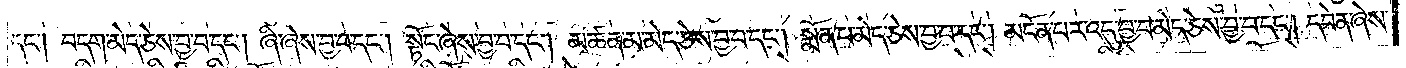དང༌། བདག་མེད་ཅེས་བྱ་བ་དང༌། ཞི་ཞེས་བྱ་བ་དང༌། སྟོང་ཞེས་བྱ་བ་དང༌། མཚན་མ་མེད་ཅེས་བྱ་བ་དང༌། སྨོན་པ་མེད་ཅེས་བྱ་བ་དང༌། མངོན་པར་འདུ་བྱ་བ་མེད་ཅེས་བྱ་བ་དང༌། དབེན་ཞེས་
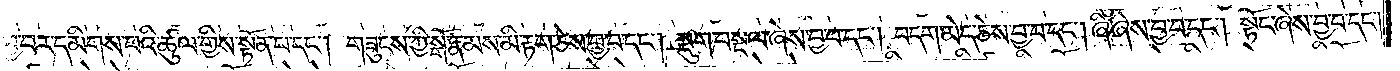བྱ་བར་དམིགས་པའི་ཚུལ་གྱིས་སྟོན་པ་དང༌། གཟུངས་ཀྱི་སྒོ་རྣམས་མི་རྟག་ཅེས་བྱ་བ་དང༌། སྡུག་བསྔལ་ཞེས་བྱ་བ་དང༌། བདག་མེད་ཅེས་བྱ་བ་དང༌། ཞི་ཞེས་བྱ་བ་དང༌། སྟོང་ཞེས་བྱ་བ་དང༌།
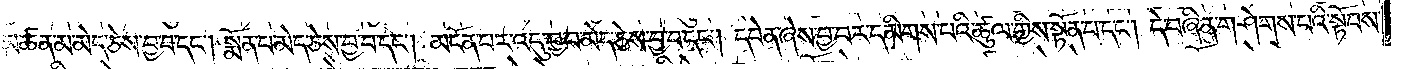མཚན་མ་མེད་ཅེས་བྱ་བ་དང༌། སྨོན་པ་མེད་ཅེས་བྱ་བ་དང༌། མངོན་པར་འདུ་བྱ་བ་མེད་ཅེས་བྱ་བ་དང༌། དབེན་ཞེས་བྱ་བར་དམིགས་པའི་ཚུལ་གྱིས་སྟོན་པ་དང༌། དེ་བཞིན་གཤེགས་པའི་སྟོབས་
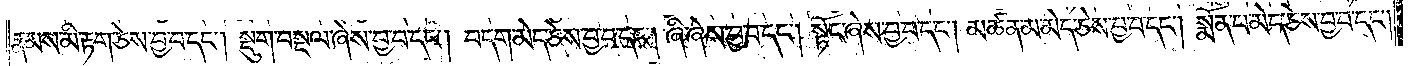རྣམས་མི་རྟག་ཅེས་བྱ་བ་དང༌། སྡུག་བསྔལ་ཞེས་བྱ་བ་དང༌། བདག་མེད་ཅེས་བྱ་བ་དང༌། ཞི་ཞེས་བྱ་བ་དང༌། སྟོང་ཞེས་བྱ་བ་དང༌། མཚན་མ་མེད་ཅེས་བྱ་བ་དང༌། སྨོན་པ་མེད་ཅེས་བྱ་བ་དང༌།
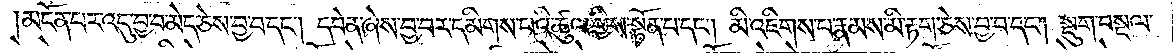མངོན་པར་འདུ་བྱ་བ་མེད་ཅེས་བྱ་བ་དང༌། དབེན་ཞེས་བྱ་བར་དམིགས་པའི་ཚུལ་གྱིས་སྟོན་པ་དང༌། མི་འཇིགས་པ་རྣམས་མི་རྟག་ཅེས་བྱ་བ་དང༌། སྡུག་བསྔལ་
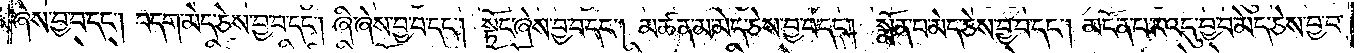ཞེས་བྱ་བ་དང༌། བདག་མེད་ཅེས་བྱ་བ་དང༌། ཞི་ཞེས་བྱ་བ་དང༌། སྟོང་ཞེས་བྱ་བ་དང༌། མཚན་མ་མེད་ཅེས་བྱ་བ་དང༌། སྨོན་པ་མེད་ཅེས་བྱ་བ་དང༌། མངོན་པར་འདུ་བྱ་བ་མེད་ཅེས་བྱ་བ་
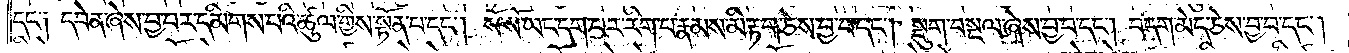དང༌། དབེན་ཞེས་བྱ་བར་དམིགས་པའི་ཚུལ་གྱིས་སྟོན་པ་དང༌། སོ་སོར་ཡང་དག་པར་རིག་པ་རྣམས་མི་རྟག་ཅེས་བྱ་བ་དང༌། སྡུག་བསྔལ་ཞེས་བྱ་བ་དང༌། བདག་མེད་ཅེས་བྱ་བ་དང༌།
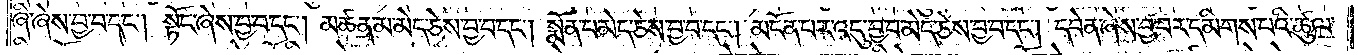ཞི་ཞེས་བྱ་བ་དང༌། སྟོང་ཞེས་བྱ་བ་དང༌། མཚན་མ་མེད་ཅེས་བྱ་བ་དང༌། སྨོན་པ་མེད་ཅེས་བྱ་བ་དང༌། མངོན་པར་འདུ་བྱ་བ་མེད་ཅེས་བྱ་བ་དང༌། དབེན་ཞེས་བྱ་བར་དམིགས་པའི་ཚུལ་
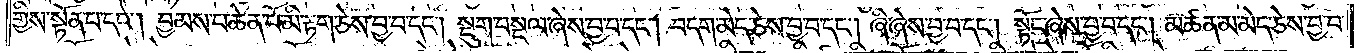གྱིས་སྟོན་པ་དང༌། བྱམས་པ་ཆེན་པོ་མི་རྟག་ཅེས་བྱ་བ་དང༌། སྡུག་བསྔལ་ཞེས་བྱ་བ་དང༌། བདག་མེད་ཅེས་བྱ་བ་དང༌། ཞི་ཞེས་བྱ་བ་དང༌། སྟོང་ཞེས་བྱ་བ་དང༌། མཚན་མ་མེད་ཅེས་བྱ་བ་
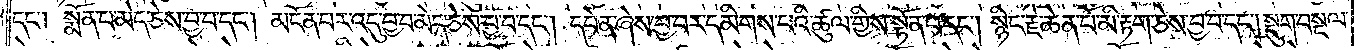དང༌། སྨོན་པ་མེད་ཅེས་བྱ་བ་དང༌། མངོན་པར་འདུ་བྱ་བ་མེད་ཅེས་བྱ་བ་དང༌། དབེན་ཞེས་བྱ་བར་དམིགས་པའི་ཚུལ་གྱིས་སྟོན་པ་དང༌། སྙིང་རྗེ་ཆེན་པོ་མི་རྟག་ཅེས་བྱ་བ་དང༌། སྡུག་བསྔལ་
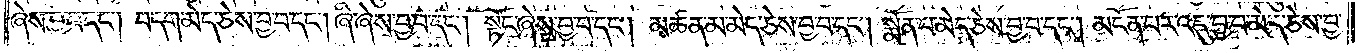ཞེས་བྱ་བ་དང༌། བདག་མེད་ཅེས་བྱ་བ་དང༌། ཞི་ཞེས་བྱ་བ་དང༌། སྟོང་ཞེས་བྱ་བ་དང༌། མཚན་མ་མེད་ཅེས་བྱ་བ་དང༌། སྨོན་པ་མེད་ཅེས་བྱ་བ་དང༌། མངོན་པར་འདུ་བྱ་བ་མེད་ཅེས་བྱ་
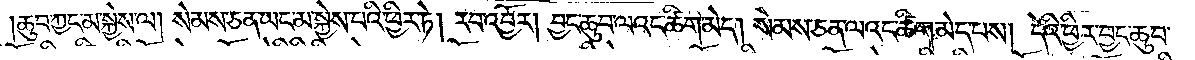ཆུབ་ཀྱང་མ་སྐྱེས་ལ། སེམས་ཅན་ཡང་མི་སྐྱེས་པའི་ཕྱིར་ཏེ། རབ་འབྱོར། བྱང་ཆུབ་ལའང་ཚིག་མེད། སེམས་ཅན་ལའང་ཚིག་མེད་པས། དེའི་ཕྱིར་བྱང་ཆུབ་
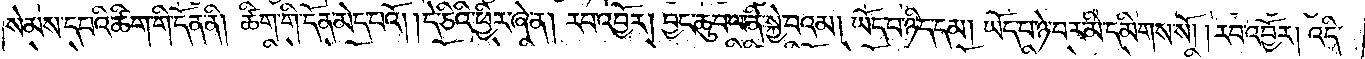སེམས་དཔའི་ཚིག་གི་དོན་ནི། ཚིག་གི་དོན་མེད་པའོ། །དེ་ཅིའི་ཕྱིར་ཞེ་ན། །རབ་འབྱོར། བྱང་ཆུབ་ལ་ནི་སྐྱེ་བའམ། ཡོད་པ་ཉིད་དམ། ཡོད་པ་ཉེ་བར་མི་དམིགས་སོ། །རབ་འབྱོར། འདི་
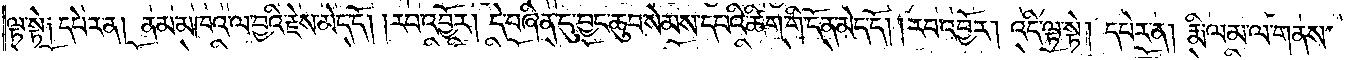ལྟ་སྟེ། དཔེར་ན། ནམ་མཁའ་ལ་བྱའི་རྗེས་མེད་དོ། །རབ་འབྱོར། དེ་བཞིན་དུ་བྱང་ཆུབ་སེམས་དཔའི་ཚིག་གི་དོན་མེད་དོ། །རབ་འབྱོར། འདི་ལྟ་སྟེ། དཔེར་ན། རྨི་ལམ་ལ་གནས་
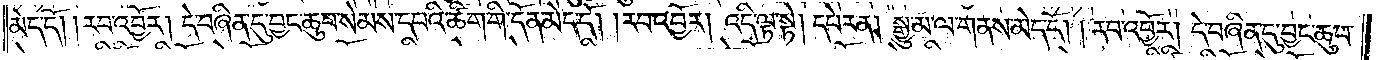མེད་དོ། །རབ་འབྱོར། དེ་བཞིན་དུ་བྱང་ཆུབ་སེམས་དཔའི་ཚིག་གི་དོན་མེད་དོ། །རབ་འབྱོར། འདི་ལྟ་སྟེ། དཔེར་ན། སྒྱུ་མ་ལ་གནས་མེད་དོ། །རབ་འབྱོར། དེ་བཞིན་དུ་བྱང་ཆུབ་
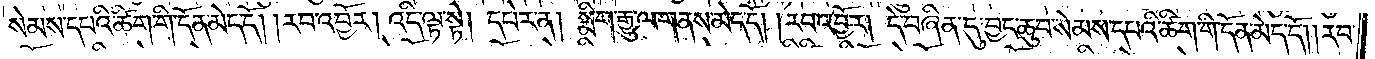སེམས་དཔའི་ཚིག་གི་དོན་མེད་དོ། །རབ་འབྱོར། འདི་ལྟ་སྟེ། དཔེར་ན། སྨིག་རྒྱུ་ལ་གནས་མེད་དོ། །རབ་འབྱོར། དེ་བཞིན་དུ་བྱང་ཆུབ་སེམས་དཔའི་ཚིག་གི་དོན་མེད་དོ། །རབ་
